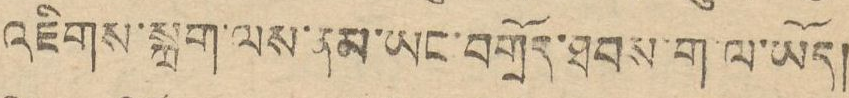འཇིགས་སྐྲག་ལས་ནམ་ཡང་བགྲོད་ཐབས་ག་ལ་ཡོད།
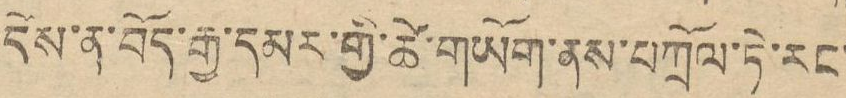དེས་ན་བོད་རྒྱ་དམར་གྱི་ཚེ་གཡོག་ནས་བཀྲོལ་ཏེ་རང་
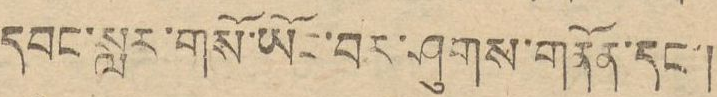དབང་སླར་གསོ་ཡོང་བར་ཤུགས་གནོན་དང་།
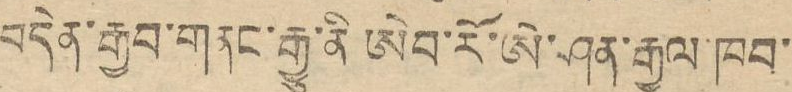བདེན་རྒྱབ་གནང་རྒྱུ་ནི་ཨེབ་རོ་ཨེ་ཤན་རྒྱལ་ཁབ་
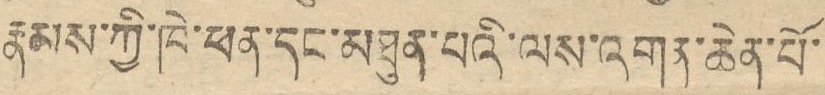རྣམས་ཀྱི་ཁེ་ཕན་དང་མཐུན་པའི་ལས་འགན་ཆེན་པོ་
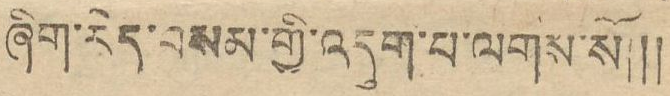ཞིག་རེད་བསམ་གྱི་འདུག་པ་ལགས་སོ།༎
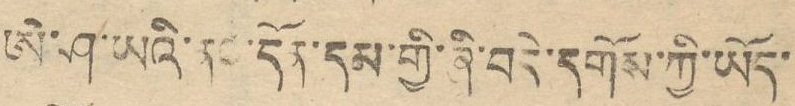ཨེ་ཤ་ཡའི་ནང་དོན་དམ་གྱི་ཞི་བདེ་དགོས་ཀྱི་ཡོད་
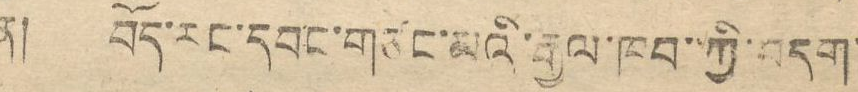ན། བོད་རང་དབང་གཙང་མའི་རྒྱལ་ཁབ་ཀྱི་བདག་
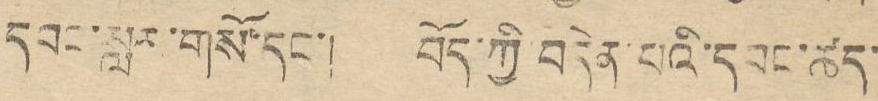དབང་སླར་གསོ་དང་། བོད་ཀྱི་བདེན་པའི་དབང་ཚད་
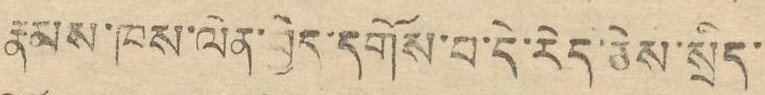རྣམས་ཁས་ལེན་བྱེད་དགོས་པ་དེ་རེད་ཅེས་སྲིད་
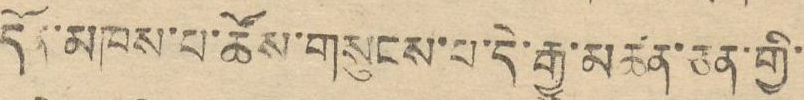དོན་མཁས་པ་ཚོས་གསུངས་པ་དེ་རྒྱུ་མཚན་ཅན་གྱི་
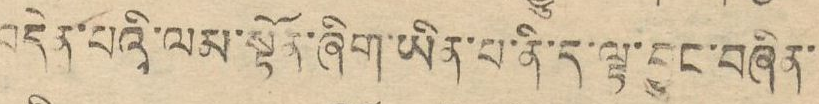བདེན་པའི་ལམ་སྟོན་ཞིག་ཡིན་པ་ནི་ད་ལྟ་བྱུང་བཞིན་
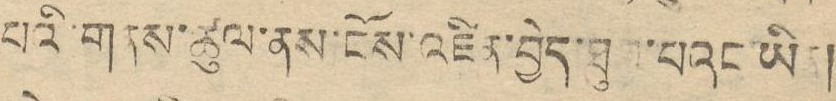པའི་གནས་ཚུལ་ནས་ངོས་འཛིན་བྱེད་ཐུབ་པའང་ཡིན།
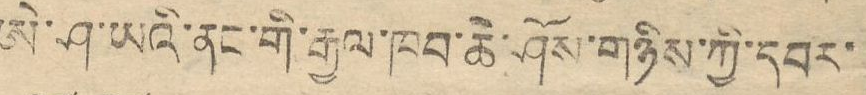ཨེ་ཤ་ཡའི་ནང་གི་རྒྱལ་ཁབ་ཆེ་ཤོས་གཉིས་ཀྱི་དབར་
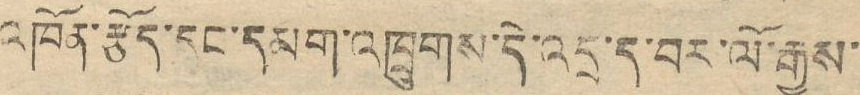འཁོན་རྩོད་དང་དམག་འཁྲུགས་དེ་འདྲ་ད་བར་ལོ་རྒྱུས་
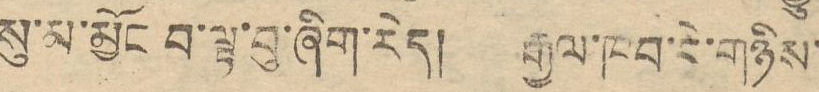སུ་མ་མྱོང བ་ལྟ་བུ་ཞིག་རེད། རྒྱལ་ཁབ་དེ་གཉིས་
